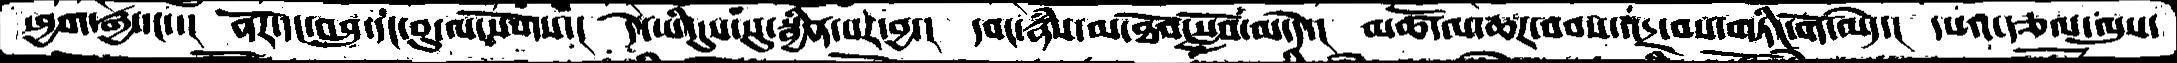ཕྱག་རྒྱ་དང་་།  ནོར་དང་འབྲུ་དང་བུ་ལངསོགས་།   དེ་ཡི་དུས་སུ་སྦྱིན་པར་བྱ་།  དབང་རྣཾས་མ་ཐོབ་སློབ་མ་དེ་།  མཚོ་ལ་ཆཌ་བབས་འདྲ་བས་གཏིང་གོ་མེད་།  དཔའ་རྩལ་ལུས་
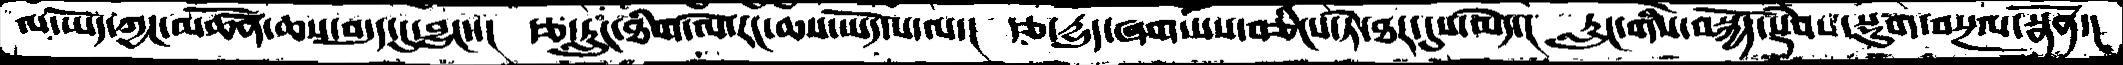ལ་ཡོད་ཀྱང་མཚོན་ཆས་བདུད་དུ་བྱུང་་།  རྩ་རླུང་ཐིག་ལེ་རང་ཆས་ཡོད་པ་ལ་།  རྩ་དྱུད་ཞགས་པས་བཅིངས་ཏེ་ཐར་དུས་མེད་།  རླུང་གིས་བསྐྱོད་སྡེབས་སྡུག་བསྔལ་སྣོན་།
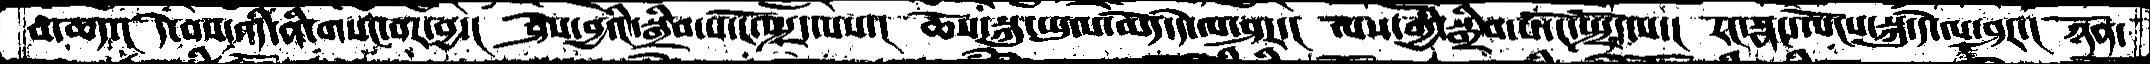བ་ཆད་།  དེ་བས་འདི་ནི་གསང་བར་བྱ་།   ཤེས་བྱའི་སྒྲིབ་པ་ངོ་སྤྲོད་པས་།  ཆོས་སྐུ་ཡུལ་མེད་དེ་ལ་ཤར་།  ལས་ཀྱི་སྒྲིབ་པ་ངོ་སྤྲོད་པ་།  རང་སྣང་ལོངས་སྐུ་དེ་ལ་ཤར་།  ཉོན་
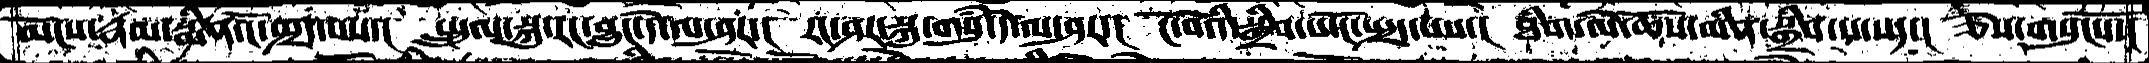མོངས་རྣམ་སྨིན་ངོ་སྤྲད་པས་།  སྤྲུལ་སྐུ་རང་བྱུང་དེ་ལ་ཤར་།  རང་ཤར་སྐུ་གསུཾ་དེ་ལ་ཤར་།  ངོ་བོའི་སྒྲིབ་པ་ངོ་སྤྲད་པས་།  ཐིག་ལེ་ཆོས་མིན་སྒྲིབ་པ་སད་།  ཅེས་གསུངསོ་།
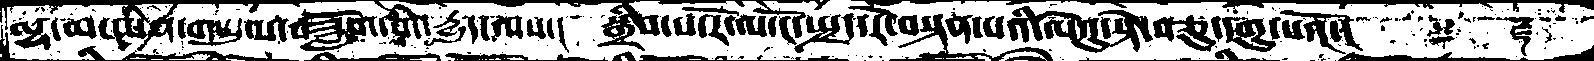ལྷ་མ་ཡིན་གཡུལ་བཟློག་གི་དྱུད་ལས་།   སྒྲིབ་པ་རོ་ལ་ངོ་སྤྲད་རེ་བསྟན་པའི་ལེའུ་སྟེ་བཅུ་དགུ་པའོ་།       ༈
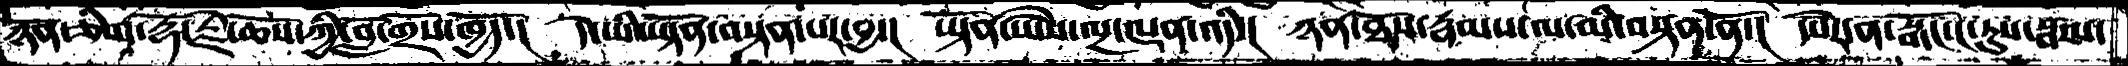ཉོན་ཅིག་རྡོ་རྗེ་ཆོས་ཀྱི་བློ་གྲོས་ཁྱོད་།  དེ་ཡི་ཡྟོན་བསྟན་པར་བྱ་།  ཡྟོན་ཡཻས་ལྔ་ལྡན་འདི་།   ཉན་ཐོས་རྣམས་ལ་མི་བསྟན་ནོ་།  དཔེར་ན་སྒོང་ང་རུས་སྦས་
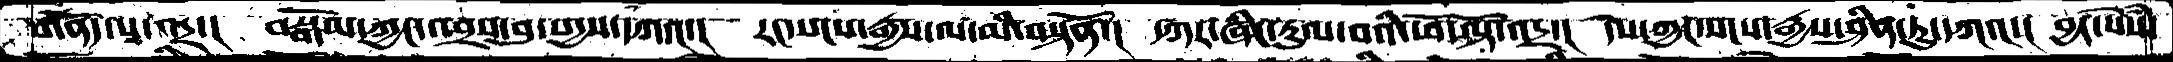གནོད་པ་འདྲ་།   བསྒོམ་ཀྱང་འབྲས་བུ་སདྱས་དཀའ་།  རང་སངས་རྒྱས་ལ་མི་བསྟནོ་།  དཀར་ཞིང་ཏུལ་བའི་ཕོ་ལྟོ་འདྲ་།  དེས་ཀྱང་སངས་རྒྱས་ཤིན་ཏུ་དཀའ་།  བྱང་སེཾས་
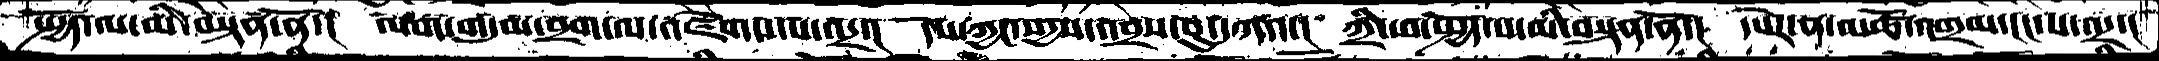སྤྱོད་ལ་མི་བསྟན་ནོ་།  ལག་གདུམ་བྲག་ལ་འཛེགས་པ་འདྲ་།  དེས་ཀྱང་སདྱས་འབྲས་བུ་དཀའ་།   ཀྲི་ཕ་སྤྱོད་པ་མི་བསྟན་ནོ་།  དཔེར་ན་མཚོ་འགྲམ་ངང་པ་འདྲ་།
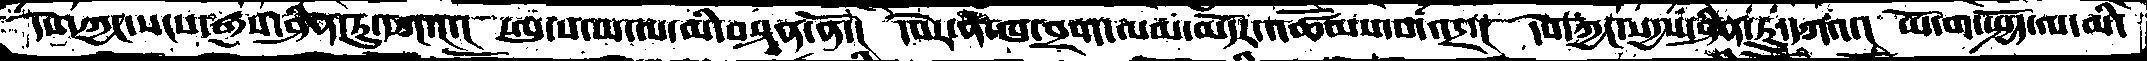དེས་ཀྱང་སངས་རྒྱས་ཤིན་ཏུ་དཀའ་།  ཨུ་པ་ལ་ལ་མི་བསྟན་ནོ་།  དཔེར་ན་ཁ་བྲག་ལམ་མདོར་འཚོམས་པ་འདྲ་།  དེས་ཀྱང་སདྱས་ཤིན་ཏུ་དཀའ་།  ཡོ་ག་སྤྱོད་ལ་མི་
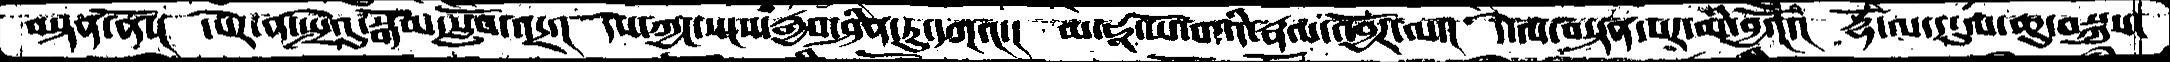བསྟན་ནོ་།  དཔེར་ན་སྤྲེའུ་སྒོམ་སློབ་འདྲ་།  དེས་ཀྱང་སངས་རྒྱས་ཤིན་ཏུ་དཀའ་།  མ་ཧཱ་ཡོ་གའི་རྣལ་འབྱོར་ལ་།  དེ་ལ་བསྟན་པར་མི་བྱའོ་།  རྡོ་ལ་དངུལ་ཆུ་བསྐུས་
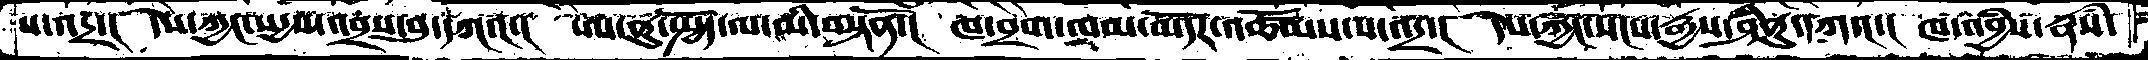པ་འདྲ་། དེས་ཀྱང་སདྱས་འབྲས་བུ་དཀའ་།  ཨ་ནུ་སྤྱོད་ལ་མི་བསྟནོ་།  ཁ་བྲག་ལམ་མདོར་འཚོམས་པ་འདྲ་།  དེས་ཀྱང་སངས་རྒྱས་ཤིནྟུ་དཀའ་། ཁ་འབྱཾས་རྣཾས་
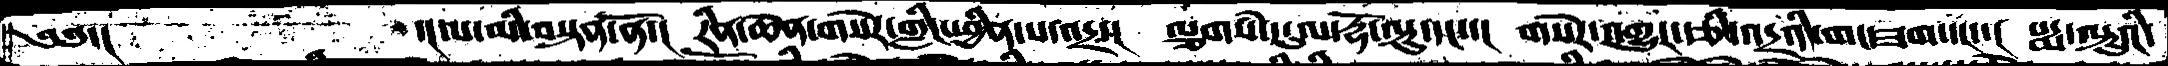༄༅་།   ་།པ་མི་བསྟན་ནོ་།  རིན་ཆེན་གསེར་གླིང་ཕྱིན་པ་འདྲ་། ལྕགསཾ་དངུལ་རྡོ་ལྟུ་དང་།  གསེར་འགྱུར་རྩི་འདྲའི་གང་ཟག་དང་་།  པདྨ་ལྟུའི་
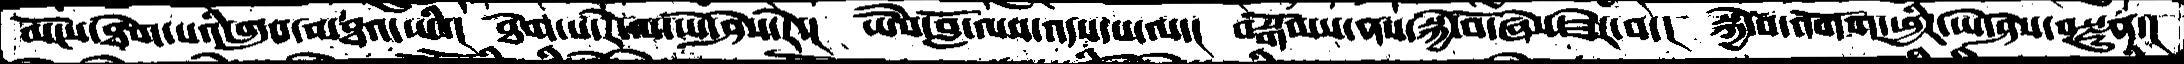མོངས་ཐེག་པའི་གྲུབ་མཐའ་ཡི་།   ཐེག་པ་རེ་ལ་ཡེ་ཤེས་རེ་།  ཡཻས་བློ་ལས་འདས་པ་ལ་།  བསྒོམས་ནས་སྐྱེ་བོ་ཞེས་ཟེར་བ་།  སྐྱེ་བ་འགོག་ཕྱིར་ཡེ་ཤེས་བསྫུན་།
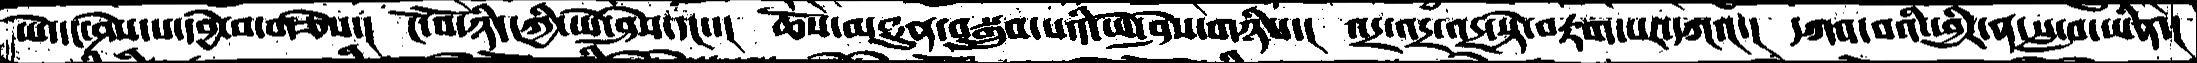ཡེ་དང་ཤེས་པ་དབྱེ་བ་གཅེས་།   ངོ་བོ་ཉིད་ཀྱི་ཡེ་ཤེས་དང་་།  ཆོས་མཐུན་བསྒྲུབ་པའི་ཡེ་ཤེས་གཉིས་།  འདྲ་འདྲ་འདྲ་སྟེ་བརྟག་པར་དཀའ་།  དཀའ་བའི་ཕྱིར་ན་སླ་བ་ཡིན་།
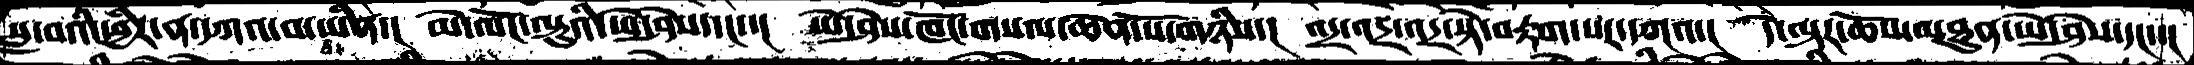སླ་བའི་ཕྱིར་ན་དཀའ་བ་ཡིན་།  མེ་ལོང་ལྟུའི་ཡེ་ཤེས་དང་།  ཡེ་ཤེས་ཁོང་གསལ་ཆེན་པོ་གཉིས་།  འདྲ་འདྲ་འདྲ་སྟེ་བརྟག་པར་དཀའ་།  དེ་ལྟར་ཆོས་མཐུན་ཡེ་ཤེས་དང་།
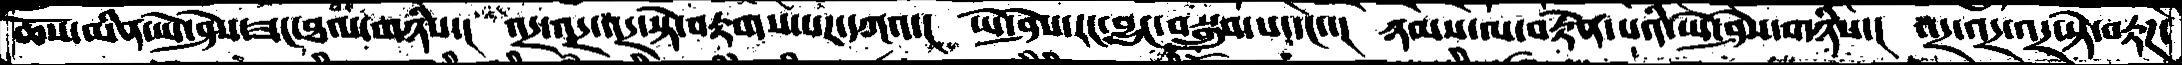ཆོས་མིན་ཡེ་ཤེས་ཟང་ཐལ་གཉིས་།  འདྲ་འདྲ་འདྲ་སྟེ་བརྟགས་པར་དཀའ་།  ཡེ་ཤེས་རང་བྱུང་བསྒྲུབ་པ་དང་་།  ཉམས་ལ་བརྟེན་པའི་ཡེ་ཤེས་གཉིས་།  འདྲ་འདྲ་འདྲ་སྟེ་བརྟཌ་
